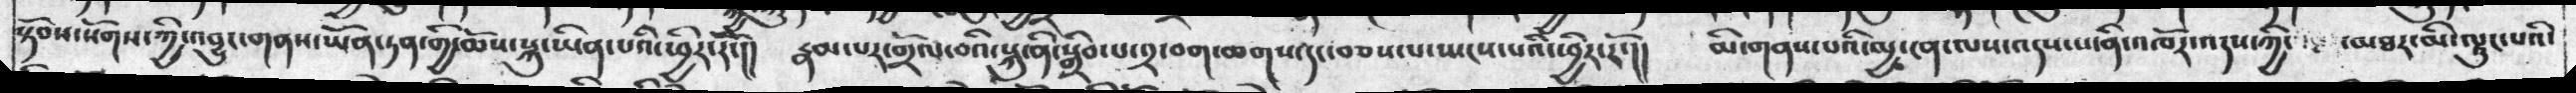སྟོབས་སོགས་ཀྱི་འབྱུང་གནས་ཡོན་ཏན་གྱི་ཆོས་སྐུ་ཡིན་པའི་ཕྱིར་རོ་།།  རྣམ་པར་གྲོལ་བའི་སྐུ་ནི་སྒྲིབ་པ་༢་བག་ཆགས་དང་པ་སྤངས་པའི་ཕྱིར་རོ་།།  མི་གནས་པའི་མྱ་ངན་ལས་འདས་པ་ནི་འཁོར་འདས་ཀྱི་  ་མཐར་མི་ལྟུང་པའི་
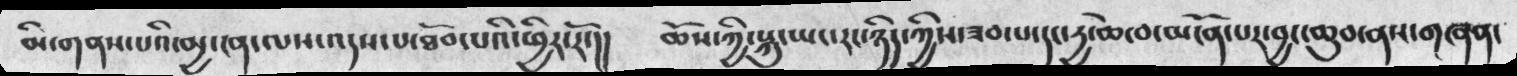མི་གནས་པའི་མྱ་ངན་ལས་འདས་པ་ཐོབ་པའི་ཕྱིར་རོ་།།  ཆོས་ཀྱི་སྐུ་ཡང་རང་ཉིད་ཀྱིས་ཟབ་པ་དང་དྱ་ཆེ་བ་མངོན་པར་བྱང་ཆུབ་ནས་གཞན་
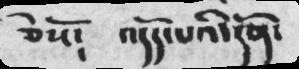ཅེསོ༴  འདོད་པའི་དོན་
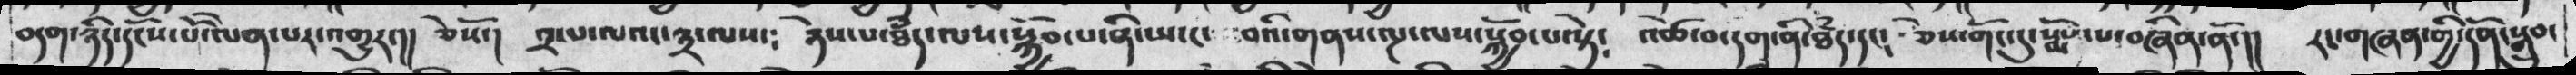བདག་ཉིད་དངོས་པོ་ལེན་པར་འགྱུར་།།  ཅེསོ་།  ༢་པ་ལའང་༣་ལས་༴  ཉེས་པ་ཐཾད་ལས་སྐྱོབ་པ་ཞི་ཡང་ བའི་གནས་ལྔ་ལས་སྐྱོབ་པ་སྟེ༴  འཚེ་བ་དག་ནི་ཐཾད་དང༴  ཅེས་གོང་དུ་སྨོས་པ་བཞིན་ནོ་།།  རང་བཞིན་གྱི་དོན་སྒྲུབ་
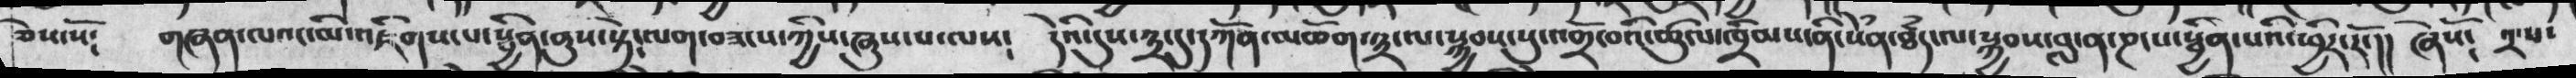ཅེས་སོ༴  གཞན་ལའང་མི་འཇིགས་པ་སྦྱིན་ནུས་སྟེ༴ལག་བཟངས་ཀྱིས་ཞུས་་པ་ལས༴  དེའི་དུས་༣་དུ་དཀོན་མཆོག་༣་ལ་སྐྱབས་སུ་འགྲོ་བའི་ཚུལ་ཁྲིམས་ནི་སེཾན་ཐཾད་ལ་སྐྱབས་བླ་ན་ཎ་པ་སྦྱིན་པའི་ཕྱིར་རོ་།།  ཞེསོ༴ ༢་པ་
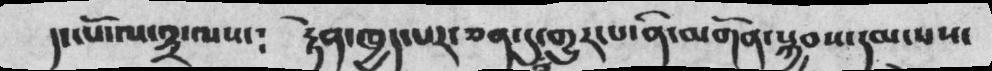དང་པོ་ལ་༣་ལས་༴  རྟེན་ཁྱད་པར་ཅན་དུ་གྱུར་པ་ནི་མགོན་སྐྱབས་དམ་པས་
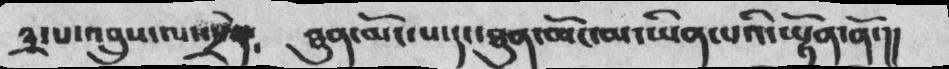༣་པ་འབྱུས་ལས་དྲེན༴  ཐུན་མོང་པ་དང་ཐུན་མོང་མ་ཡིན་པའི་ཡྟོན་ནོ་།།
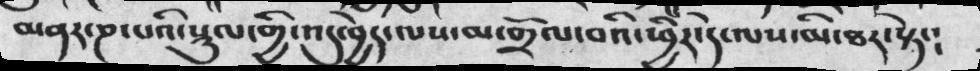མནར་ཎ་པའི་སྡུལ་གྱི་འདུ་བྱེད་ལས་མ་གྲོལ་བའི་ཕྱིར་དེ་ལས་མི་ཐར་སྟེ་༴
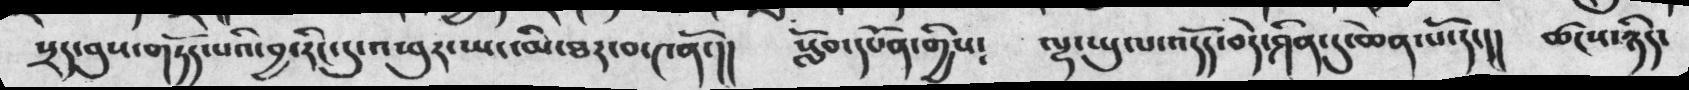སྲད་བུས་གཏོད་པའི་བྱ་རིང་དུ་འཕུར་ཡང་མི་ཐར་བ་༤ནོ་།།   སློབ་དཔོན་གྱིས༴   ལྷ་ཡུལ་འདོད་བདེ་ཤིན་དུ་ཆེན་པོ་དང།།   ཚངས་ཉིད་
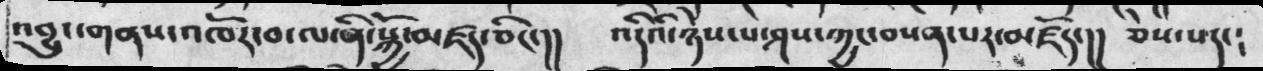འབྱུང་གནས་འཁོར་བ་ལ་ནི་སྐྱོ་མཛད་ཅིང་།།    འདིའི་ཉེས་པ་ཤས་ཀྱང་བསན་པར་མཛོད་།།   ཅེས་པ་དང།
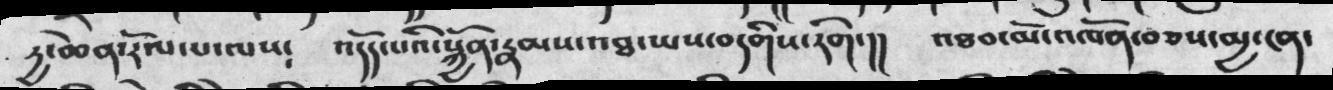རྒྱ་ཆེན་རོལ་པ་ལས༴    འདོད་པའི་སྐྱོན་རྣམས་འཐ་ཡས་བདགིས་རེག་།།   འཐབ་མོ་འཁོན་བཅས་མྱ་ངན་
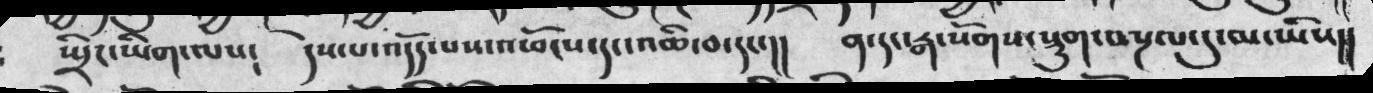ཡྲིང་ཡིག་ལས༴    དེས་པ་འདོད་པས་འཕོངས་དང་འཆི་བ་དང་།།     ན་དང་རྒ་སོགས་སྡུག་བསྔལ་དུ་མ་ཡཡིས།།
